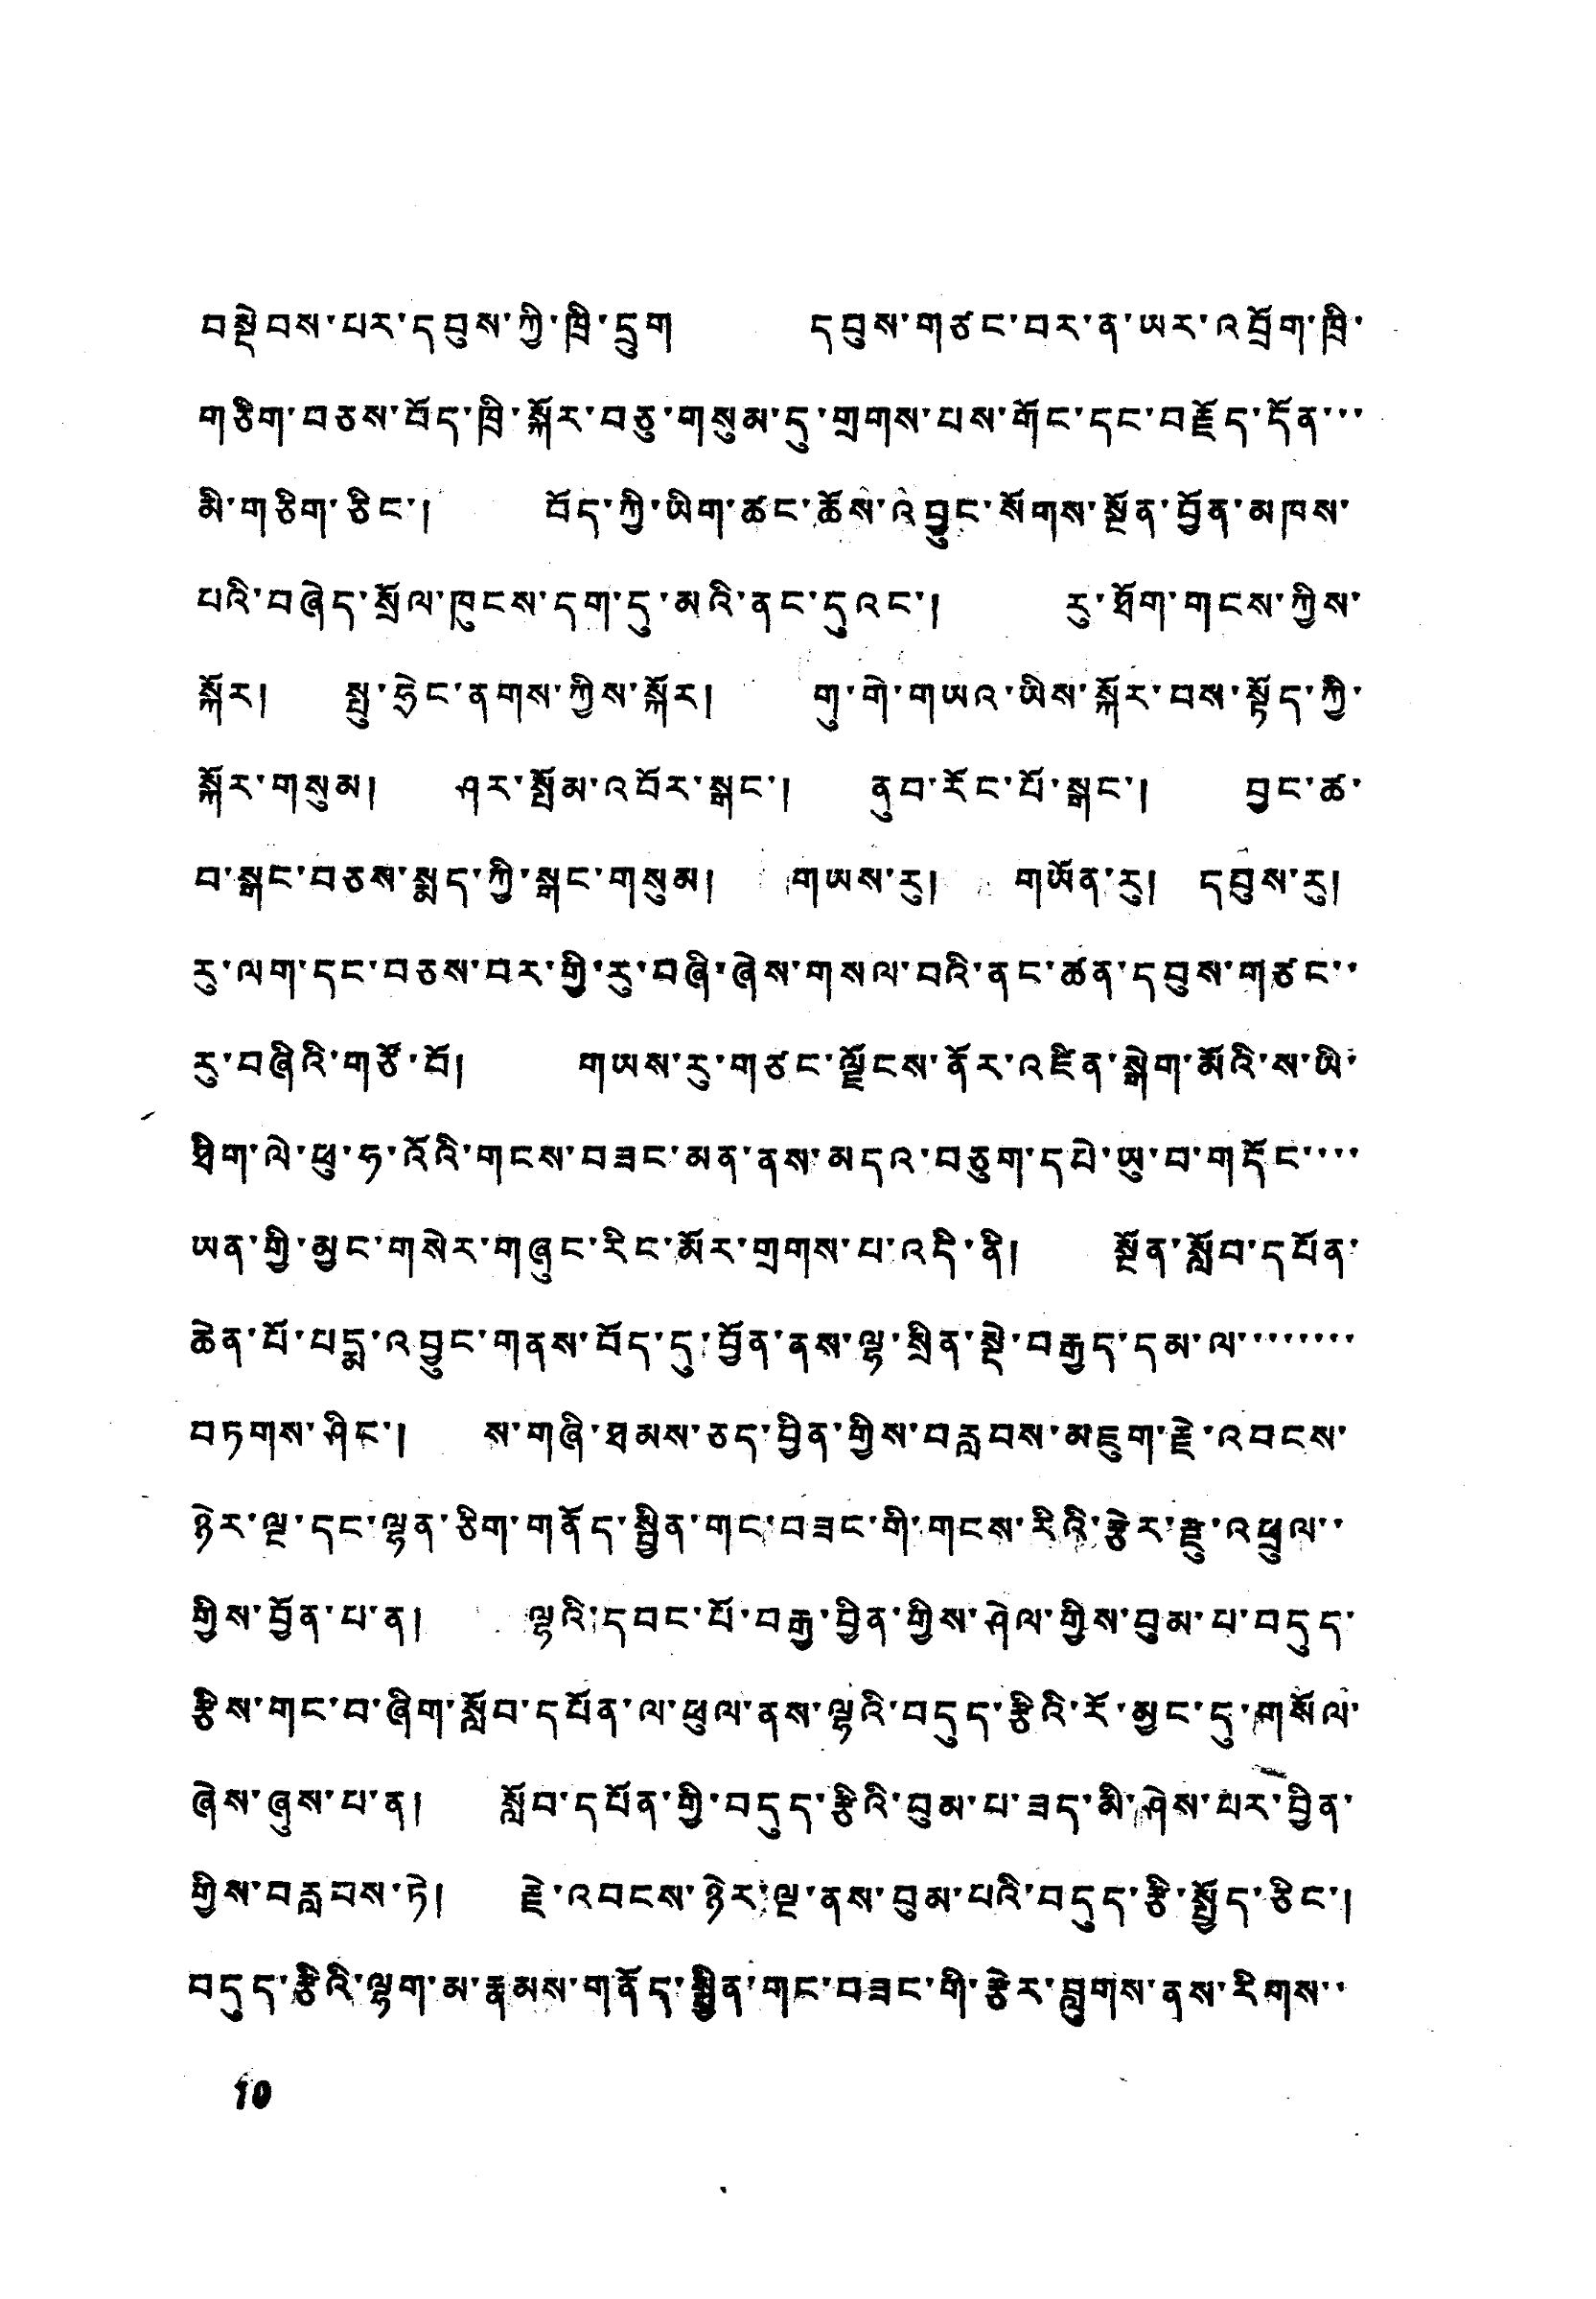བསྡེབས་པར་དབུས་ཀྱི་ཁྲི་དྲུག དབུས་གཙང་བར་ན་ཡར་འབྲོག་ཁྲི་
གཅིག་བཅས་བོད་ཁྲི་སྐོར་བཅུ་གསུམ་དུ་གྲགས་པས་གོང་དང་བརྗོད་དོན་་་
མི་གཅིག་ཅིང་། བོད་ཀྱི་ཡིག་ཚང་ཆོས་འབྱུང་སོགས་སྔོན་བྱོན་མཁས་
པའི་བཞེད་སྲོལ་ཁུངས་དག་དུ་མའི་ནང་དུའང་། རུ་ཐོག་གངས་ཀྱིས་
སྐོར། སྤུ་ཧྲེང་ནགས་ཀྱིས་སྐོར་།་གུ་གེ་གཡའ་ཡིས་སྐོར་བས་སྟོད་ཀྱི་
སྐོར་གསུམ། ཤར་སྤོམ་འབོར་སྒང་།་ནུབ་རོང་པོ་སྒང་།་བྱང་ཚ་
བ་སྒང་བཅས་སྨད་ཀྱི་སྒང་གསུམ། གཡས་རུ། གཡོན་རུ། དབུས་རུ།
རུ་ལག་དང་བཅས་བར་གྱི་རུ་བཞི་ཞེས་གསལ་བའི་ནང་ཚན་དབུས་གཙང་་
རུ་བཞིའི་གཙོ་བོ། གཡས་རུ་གཙང་ལྗོངས་ནོར་འཛིན་སྒེག་མོའི་ས་ཡི་
ཐིག་ལེ་ཕུ་ཧ་འོའི་གངས་བཟང་མན་ནས་མདའ་བཅུག་དཔེ་ཡུ་བ་གདོང་་་་
ཡན་གྱི་མྱང་གསེར་གཞུང་རིང་མོར་གྲགས་པ་འདི་ནི། སྔོན་སློབ་དཔོན་
ཆེན་པོ་པདྨ་འབྱུང་གནས་བོད་དུ་བྱོན་ནས་ལྷ་སྲིན་སྡེ་བརྒྱད་དམ་ལ་་་་་་་་
བཏགས་ཤིང་། ས་གཞི་ཐམས་ཅད་བྱིན་གྱིས་བརླབས་མཇུག་རྗེ་འབངས་
ཉེར་ལྔ་དང་ལྷན་ཅིག་གནོད་སྦྱིན་གང་བཟང་གི་གངས་རིའི་རྩེར་རྫུ་འཕྲུལ་་
གྱིས་བྱོན་པ་ན། ལྷའི་དབང་པོ་བརྒྱ་བྱིན་གྱིས་ཤེལ་གྱིས་བུམ་པ་བདུད་
རྩིས་གང་བ་ཞིག་སློབ་དཔོན་ལ་ཕུལ་ནས་ལྷའི་བདུད་རྩིའི་རོ་མྱང་དུ་གསོལ་
ཞེས་ཞུས་པ་ན། སློབ་དཔོན་གྱི་བདུད་རྩིའི་བུམ་པ་ཟད་མི་ཤེས་པར་བྱིན་
གྱིས་བརླབས་ཏེ། རྗེ་འབངས་ཉེར་ལྔ་ནས་བུམ་པའི་བདུད་རྩི་སྤྱོད་ཅིང་།
བདུད་རྩིའི་ལྷག་མ་རྣམས་གནོད་སྦྱིན་གང་བཟང་གི་རྩེར་བླུགས་ནས་རིགས་་
10
